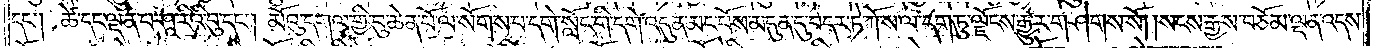དང༌། ཚེ་དང་ལྡན་པ་ཤཱ་རིའི་བུ་དང༌། མོའུ་དགལ་གྱི་བུ་ཆེན་པོ་ལ་སོགས་པ་དགེ་སློང་གི་དགེ་འདུན་མང་པོས་མདུན་དུ་བདར་ཏེ་ཀོ་ས་ལ་དག་ཏུ་ལྗོངས་རྒྱུར་གཤེགས་སོ། །སངས་རྒྱས་བཅོམ་ལྡན་འདས་
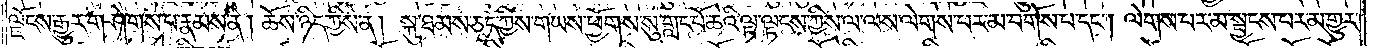ལྗོངས་རྒྱུར་གཤེགས་པ་རྣམས་ནི། ཆོས་ཉིད་ཀྱིས་ན། སྐུ་ཐམས་ཅད་ཀྱིས་གཡས་ཕྱོགས་སུ་གླང་པོ་ཆེའི་ལྟ་ལྟངས་ཀྱིས་ལ་ལས་ལེགས་པར་མ་བགོས་པ་དང༌། ལེགས་པར་མ་སྦྱངས་པར་མ་གྱུར་
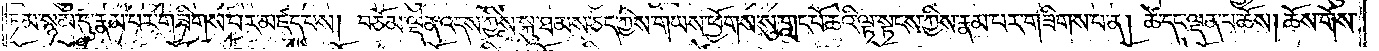ཏམ་སྙམ་དུ་རྣམ་པར་གཟིགས་པར་མཛད་པས། བཅོམ་ལྡན་འདས་ཀྱིས་སྐུ་ཐམས་ཅད་ཀྱིས་གཡས་ཕྱོགས་སུ་གླང་པོ་ཆེའི་ལྟ་སྟངས་ཀྱིས་རྣམ་པར་གཟིགས་པ་ན། ཚེ་དང་ལྡན་པ་ཆོས། ཆོས་གོས་
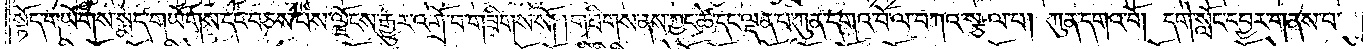སྟོད་གཡོགས་སྨད་གཡོགས་དང་བཅས་པས་ལྗོངས་རྒྱུར་འགྲོ་བ་གཟིགས་སོ། །གཟིགས་ནས་ཀྱང་ཚེ་དང་ལྡན་པ་ཀུན་དགའ་བོ་ལ་བཀའ་སྩལ་པ། ཀུན་དགའ་བོ། དགེ་སློང་དབྱར་གནས་པ་
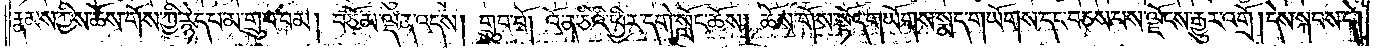རྣམས་ཀྱིས་ཆོས་གོས་ཀྱི་རྙེད་པ་མ་གྲུབ་བམ། བཅོམ་ལྡན་འདས། གྲུབ་བོ། འོ་ན་ཅིའི་ཕྱིར་དགེ་སློང་ཆོས། ཆོས་གོས་སྟོད་གཡོགས་སྨད་གཡོགས་དང་བཅས་པས་ལྗོངས་རྒྱུར་འགྲོ། དེས་སྐབས་དེ།
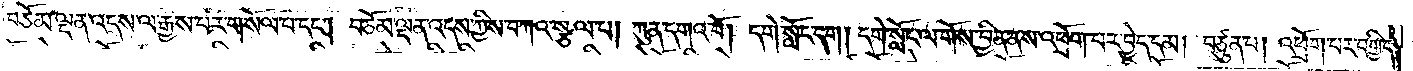བཅོམ་ལྡན་འདས་ལ་རྒྱས་པར་གསོལ་བ་དང༌། བཅོམ་ལྡན་འདས་ཀྱིས་བཀའ་སྩལ་པ། ཀུན་དགའ་བོ། དགེ་སློང་དག། དགེ་སློང་ལ་གོས་བྱིན་ནས་འཕྲོག་པར་བྱེད་དམ། བཙུན་པ། འཕྲོག་པར་བགྱིད་
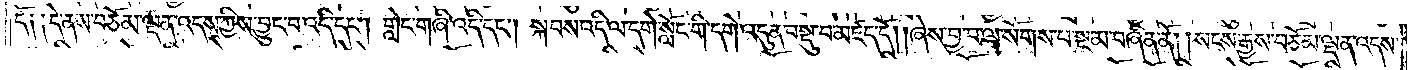དོ༑ ༑དེ་ནས་བཅོམ་ལྡན་འདས་ཀྱིས་བྱུང་བ་འདི་དང༌། གླེང་གཞི་འདི་དང༌། སྐབས་འདི་ལ་དགེ་སློང་གི་དགེ་འདུན་བསྡུ་བ་མཛད་དོ། །ཞེས་བྱ་བ་ལ་སོགས་པ་སྔ་མ་བཞིན་ནོ། །སངས་རྒྱས་བཅོམ་ལྡན་འདས་
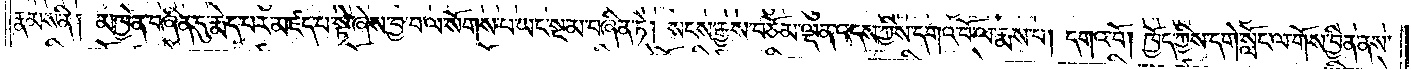རྣམས་ནི། མཁྱེན་བཞིན་དུ་རྨེད་པར་མཛད་པ་སྟེ་ཞེས་བྱ་བ་ལ་སོགས་པ་ཡང་སྔ་མ་བཞིན་ཏེ། སངས་རྒྱས་བཅོམ་ལྡན་འདས་ཀྱིས་དགའ་བོ་ལ་རྨས་པ། དགའ་བོ། ཁྱོད་ཀྱིས་དགེ་སློང་ལ་གོས་བྱིན་ནས་
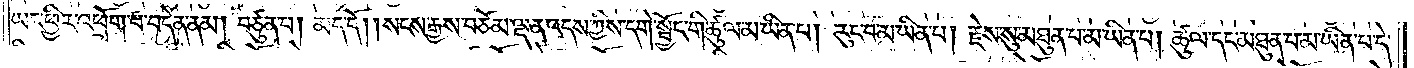ཡང་ཕྱིར་འཕྲོག་པ་བདེན་ནམ། བཙུན་པ། མད་དོ། །སངས་རྒྱས་བཅོམ་ལྡན་འདས་ཀྱིས་དགེ་སྦྱོང་གི་ཚུལ་མ་ཡིན་པ། རུང་བ་མ་ཡིན་པ། རྗེས་སུ་མཐུན་པ་མ་ཡིན་པ། ཚུལ་དང་མཐུན་པ་མ་ཡིན་པ་དེ་
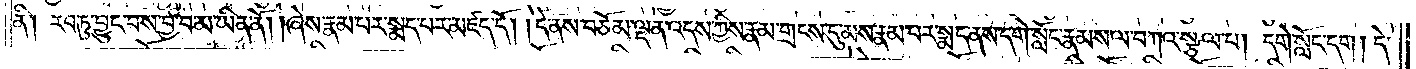ནི། རབ་ཏུ་བྱུང་བས་བྱ་བ་མ་ཡིན་ནོ། །ཞེས་རྣམ་པར་སྨད་པར་མཛད་དོ། །དེ་ནས་བཅོམ་ལྡན་འདས་ཀྱིས་རྣམ་གྲངས་དུ་མས་རྣམ་པར་སྨད་ནས་དགེ་སློང་རྣམས་ལ་བཀའ་སྩལ་པ། དགེ་སློང་དག །དེ་
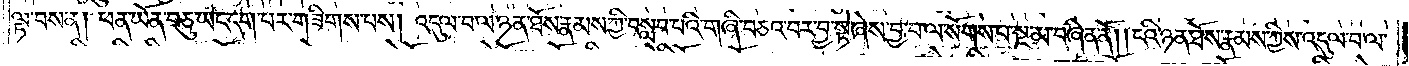ལྟ་བས་ན། ཕན་ཡོན་བཅུ་ཡང་དག་པར་གཟིགས་པས། འདུལ་བ་ལ་ཉན་ཐོས་རྣམས་ཀྱིས་བསླབ་པའི་གཞི་བཅའ་བར་བྱ་སྟེ་ཞེས་བྱ་བ་ལ་སོགས་པ་སྔ་མ་བཞིན་ནོ། །ངའི་ཉན་ཐོས་རྣམས་ཀྱིས་འདུལ་བ་ལ་
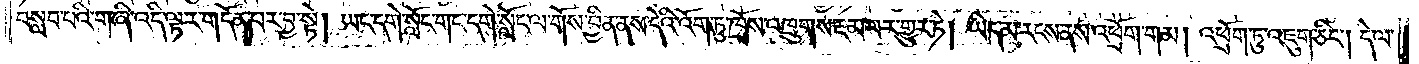བསླབ་པའི་གཞི་འདི་ལྟར་གདོན་པར་བྱ་སྟེ། ཡང་དགེ་སློང་གང་དགེ་སློང་ལ་གོས་བྱིན་ནས་དེའི་འོག་ཏུ་ཁྲོས་འཁྲུགས་རྔམ་པར་གྱུར་ཏེ། ཡིད་མ་རངས་ནས་འཕྲོག་གམ། འཕྲོག་ཏུ་འཇུག་ཅིང༌། དེ་ལ་
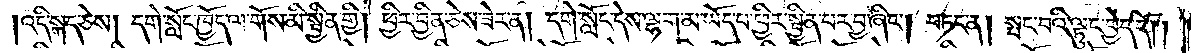འདི་སྐད་ཅེས། དགེ་སློང་ཁྱོད་ལ་གོས་མི་སྦྱིན་གྱི། ཕྱིར་བྱིན་ཅེས་ཟེར་ན། དགེ་སློང་དེས་ལྷག་མ་ཡོད་པ་ཕྱིར་སྦྱིན་པར་བྱ་ཞིང༌། བཏང་ན། སྤང་བའི་ལྟུང་བྱེད་དོ། །
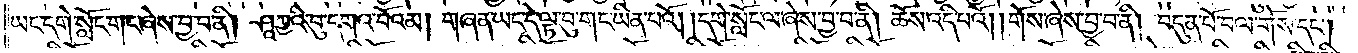ཡང་དགེ་སློང་གང་ཞེས་བྱ་བ་ནི། ཤཱཀྱའི་བུ་དགའ་བོའམ། གཞན་ཡང་དེ་ལྟ་བུ་གང་ཡིན་པའོ། །དགེ་སློང་ལ་ཞེས་བྱ་བ་ནི། ཆོས་འདི་པའོ། །གོས་ཞེས་བྱ་བ་ནི། བདུན་པོ་བལ་གོས་དང༌།
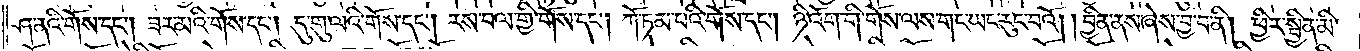ཤ་ནའི་གོས་དང༌། ཟར་མའི་གོས་དང༌། དུ་གུ་ལའི་གོས་དང༌། རས་བལ་གྱི་གོས་དང༌། ཀོ་ཏམ་པའི་གོས་དང༌། ཉི་འོག་གི་གོས་ལས་གང་ཡང་རུང་བའོ། །བྱིན་ནས་ཞེས་བྱ་བ་ནི། ཕྱིར་སྦྱིན་མི་
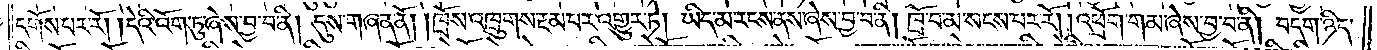དགོས་པར་རོ། །དེའི་འོག་ཏུ་ཞེས་བྱ་བ་ནི། དུས་གཞན་ནོ། །ཁྲོས་འཁྲུགས་རྔམ་པར་འགྱུར་ཏེ། ཡིད་མ་རངས་ནས་ཞེས་བྱ་བ་ནི། ཁྲོ་བ་མ་སངས་པར་རོ། །འཕྲོག་གམ་ཞེས་བྱ་བ་ནི། བདག་ཉིད་
